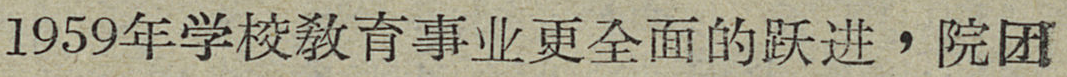1959年学校敎育事业更全面的跃进，院团
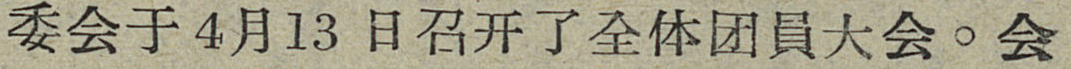委会于4月13日召开了全体团員大会。会
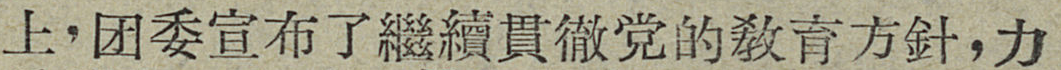上，团委宣布了繼續貫徹党的敎育方針，力
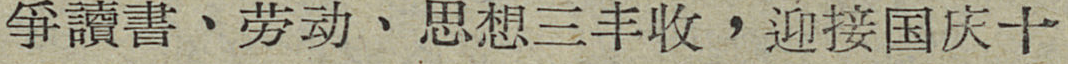爭讀書、劳动、思想三丰收，迎接国庆十
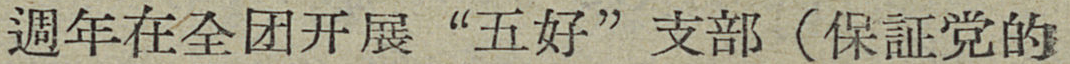週年在全团开展“五好”支部（保証党的
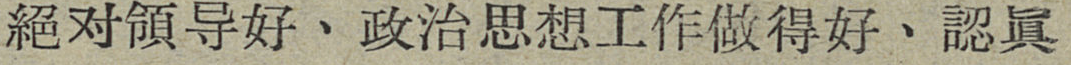絕对領导好、政治思想工作做得好、認眞
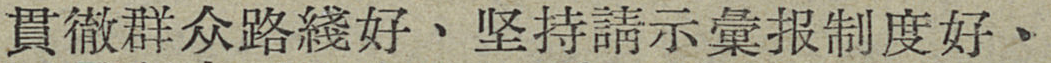貫徹群众路綫好、坚持請示彙报制度好、
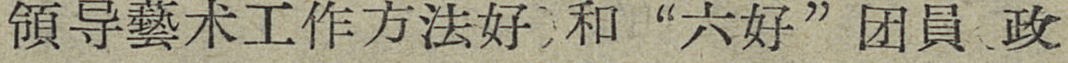領导藝术工作方法好）和“六好”团員 政
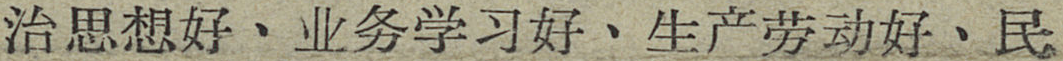治思想好、业务学习好、生产劳动好、民
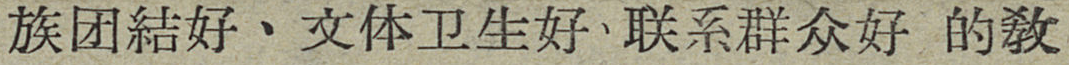族团結好、文体卫生好、联系群众好 的敎
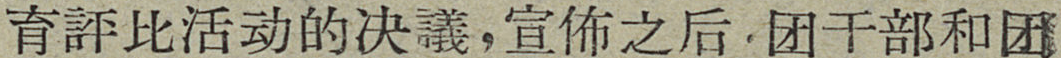育評比活动的决議，宣佈之后，团干部和团
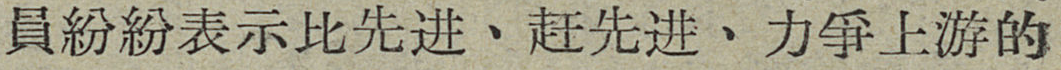員紛紛表示比先进、赶先进、力爭上游的
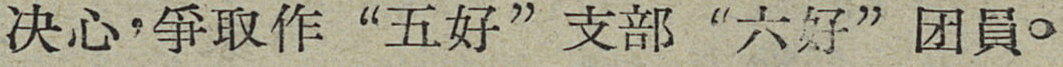决心，爭取作“五好”支部“六好”团員。
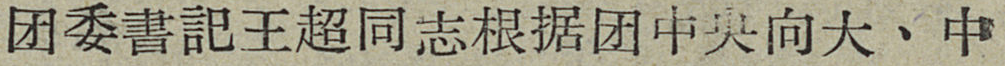团委書記王超同志根据团中央向大、中
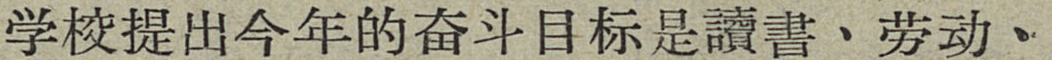学校提出今年的奋斗目标是讀書、劳动、
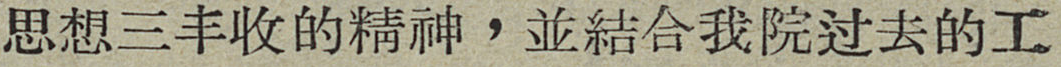思想三丰收的精神，並結合我院过去的工
